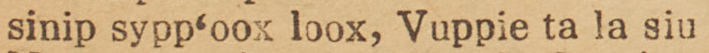sinip sypp'oox loox, Vuppie ta la siu
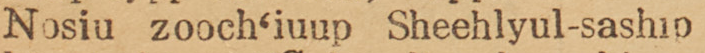Nosiu zooch'iuup Sheehlyul-saship
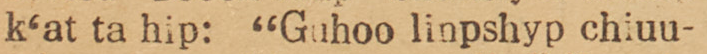k'at ta hip: "Guhoo linpshyp chiuu-
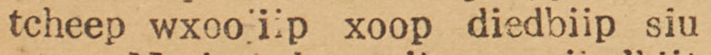tcheep wxoojiip xoop diedbiip siu
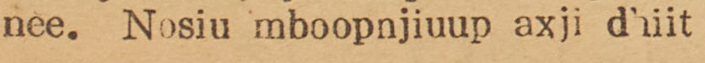nee. Nosiu mboopnjiuup axji dhiit
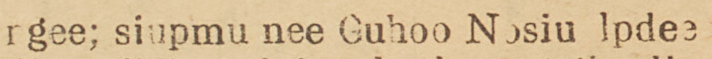ngee; siupmu nee Guhoo Nosiu lpdee
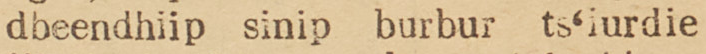dbeendhiip sinip burbur ts'iurdie
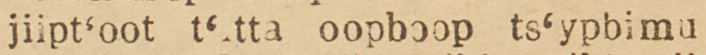jiipt'oot t' tta oopboop ts'ypbimu
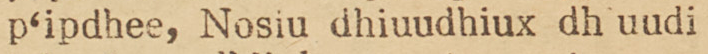p'ipdhee, Nosiu dhiuudhiux dhiuudi
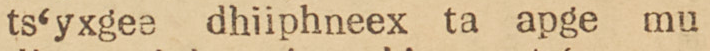ts'yxgee dhiiphneex ta apge mu
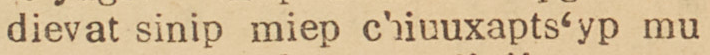dievat sinip miep chiuuxapts'yp mu
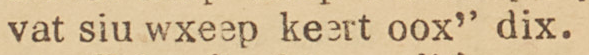vat siu wxeep keert oox" dix.
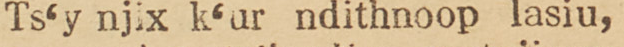Ts'y njix k'ur ndithnoop lasiu,
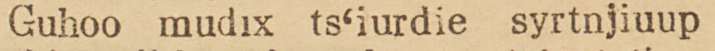Guhoo mudix ts'iurdie syrtnjiuup
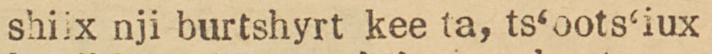shiix nji burtshyrt kee ta, ts'oots'iux
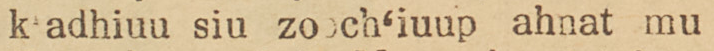k'adhiuu siu zooch'iuup ahnat mu
